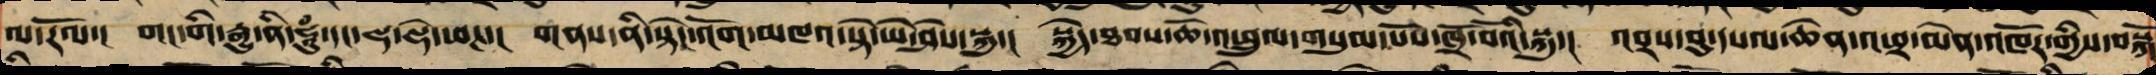ལ་རོལ་། གང་གིས་རྒྱུ་ནི་ཧཱུཾ་དང་ཧ་ཧེ་ཕཊ་། གནས་ནི་སྟེང་འོག་མཁའ་སྟེ་ཡེ་ཤེས་སྐུ་། སྐྱེད་ཐབས་ཆོ་འཕྲུལ་གསུམ་པོས་ཁྲོ་བོའི་སྐུ་། འབྲས་བུ་དཔལ་ཆེན་ཕྲ་མེན་འཁོར་གྱིས་བསྐོ
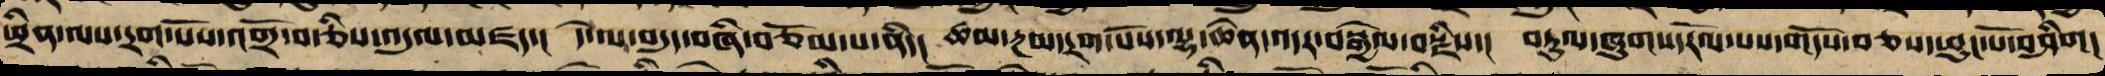ཕྲིན་ལས་དྲག་པོས་འགྲོ་བ་ཅིས་འདུལ་མཛད་། དེ་ལ་བདུད་བཞི་བཅོམ་པ་ནི་། ཚམ་རྔམ་དྲག་པོས་ལྷ་ཆེན་འདར་བསྒྱེལ་བརྫིས་། བརྟུལ་ཞུགས་རོལ་པས་གདོས་བཅས་ཕུང་པོ་བཤིག།
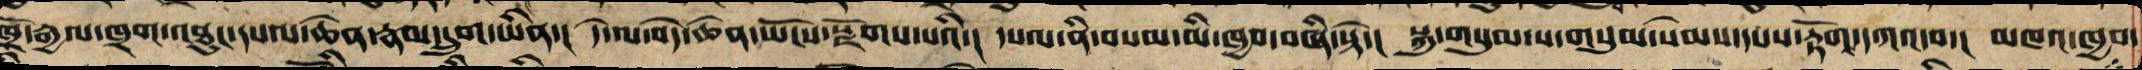ཁྲོ་རྒྱལ་ཁྲག་འཐུང་དཔལ་ཆེན་རྣམ་དྲུག་ཡིན་། དེ་ལ་བདེ་ཆེན་ཡོངས་སྫོགས་པའི་།  དཔལ་ནི་བསམ་མི་ཁྱབ་བཞི་སྟེ་།  སྐུ་གསུམ་ས་གསུམ་སེམས་དཔས་རྟོགས་དཀའ་བ་། མཁའ་ཁྱབ་
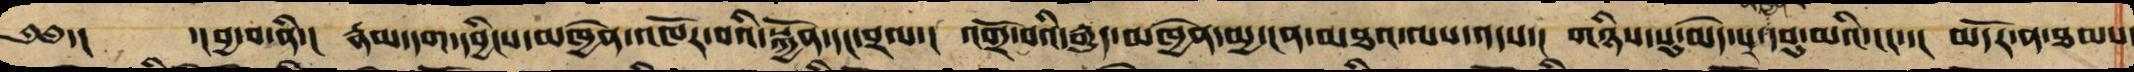༄༅་། ་།བྱ་བ་ནི་། རྣམ་དག་དབྱིངས་མཁྱེན་འཁོར་བའི་སྐྱོན་དང་བྲལ་། འགྲོ་བའི་རྒྱུད་མཁྱེན་མྱ་ངན་མཐའ་ལས་འདས་། གཉིས་སུ་མེད་པ་མཁྱེན་པ་དབུ་མའི་ངང་་། མདོར་ན་ཐམས་
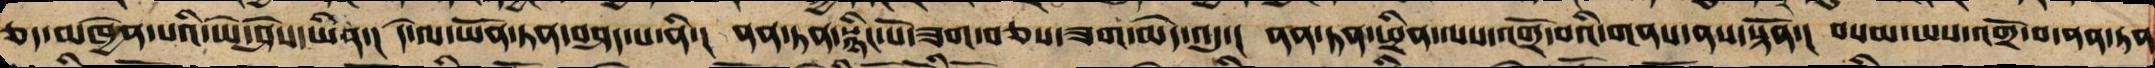ཅད་མཁྱེན་པའི་ཡེ་ཤེས་ཡིན་། དེ་ལ་ནན་ཏན་བཤད་པ་ནི་། ནན་ཏན་སྙིང་པོ་ཟག་བཅས་ཟག་མེད་འདུ་། ནན་ཏན་ཕྲིན་ལས་འགྲོ་བའི་གནས་ན་སྟོན་། བསམ་ཡས་འགྲོ་བ་ནན་ཏན
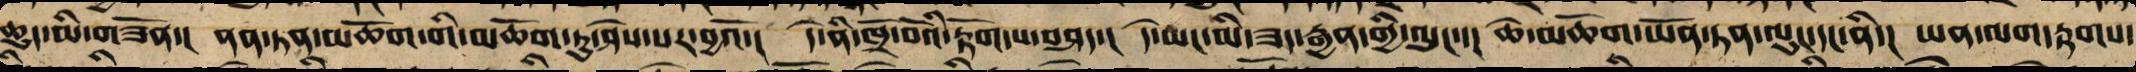ཆུད་མི་གཟོན་། ནན་ཏན་མཆོག་གི་མཆོག་ཏུ་ཤེས་པར་བྱའོ་། དེ་ནི་ཁྲོ་བོའི་རྟོག་པ་བཤད་། དེ་ཡང་མི་ཟད་རྒྱན་གྱི་ལུང་་། ཆེ་མཆོག་ཡོན་ཏན་ལུང་དང་ནི་། ཡན་ལག་རྟགས་
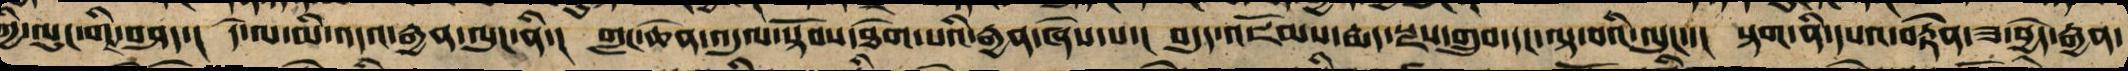ཀྱི་ལུང་གིས་བཤད་། དེ་ལ་མི་འདའ་རྒྱན་ལུང་ནི་། གླང་ཆེན་འདུལ་སྟོབས་ཐེག་པའི་རྒྱན་ཞེས་པ་། བདུད་འཇོམས་སྨན་སྫས་གྲུབ་པ་བལྟ་བའི་ལུང་་། སྟག་ནི་དཔའ་རྟུལ་ཟ་བྱེད་རྒྱན་
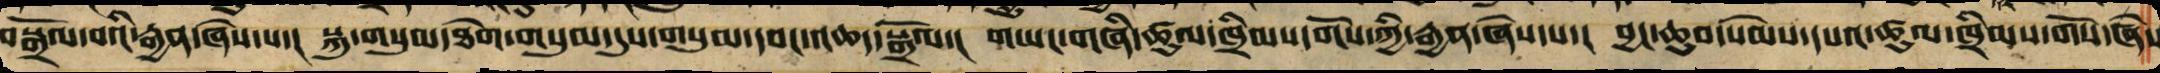བསྒྲོལ་བའི་རྒྱན་ཞེས་པ་། སྐུ་གསུམ་ཐེག་གསུམ་དུས་གསུམ་དབང་ཆས་སྒྲོལ་། གཡང་གཞི་ཚུལ་ཁྲིམས་གོས་ཀྱི་རྒྱན་ཞེས་པ་། བྱང་ཆུབ་སེམས་དཔའ་ཚུལ་དམ་ཁྲིམས་གོས་ཞེས
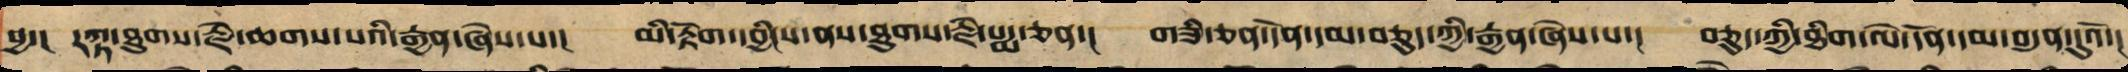བྱ་། རཀྟ་ཐུགས་རྗེ་ཆགས་པའི་རྒྱན་ཞེས་པ་། མི་རྟོག་དབྱིངས་ནས་ཐུགས་རྗེ་པདྨའི་ཅན་། གཟི་ཅན་དོན་དམ་བཅུད་ཀྱི་རྒྱན་ཞེས་པ་། བཅུད་ཀྱི་ཐིག་ལེ་དོན་དམ་ཀུན་ཏུ་འོད་།
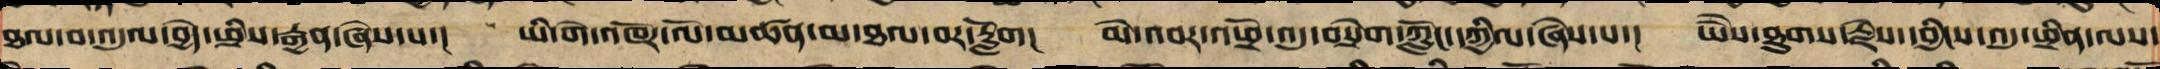ཐལ་བ་འདུལ་བྱེད་ཕྲིན་ལས་རྒྱན་ཞེས་པ་། ཡི་གེ་འཁོར་ལོ་མཚན་མ་ཐལ་བར་རློག། མེ་འབར་འཕྲོ་འདུ་བསྲེག་ཀློང་དཀྱིལ་ཞེས་པ་། ཡཻས་ཐུགས་རྗེས་དབྱིངས་འདུ་ཕྲིན་ལས་
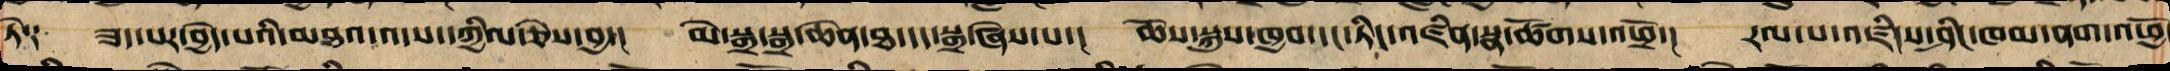ཏེ༑ ཟད་པར་བྱེད་པའི་མཐའ་འདས་དཀྱིལ་ཞེས་བྱ་། མེ་སྒྲ་སྒྲ་ཆེན་ཐ་དད་སྒྲ་ཞེས་པ་། ཆོས་སྐུས་ཁྱབ་དང་ཏིང་འཛིན་སྣ་ཚོགས་འཕྲོ་། རལ་པ་འཛིངས་ཤིང་ཁམ་ནག་འཕྱོ
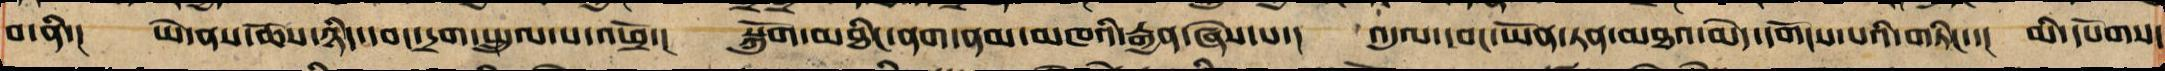བ་ནི་། ཡེ་ནས་ཆོས་ཉིད་དབང་དྲག་སྤྲུལ་པ་འཕྲོ་། སྐོུག་མཐིང་ནག་ནམ་མཁའི་རྒྱན་ཞེས་པ་། འདུལ་དབང་ཡོན་ཏན་མཐའ་མེད་དགོངས་པའི་གཏིང་་། མི་དཔོགས་
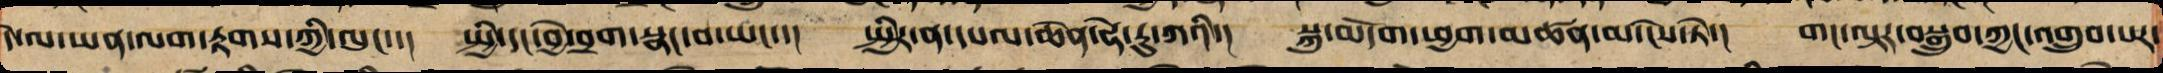དེ་ལ་ཡན་ལག་རྟགས་ཀྱི་ལུང་་། སྤྱི་དང་བྱེ་བྲག་སྣང་བ་ཡང་་། སྤྱིར་ན་དཔལ་ཆེན་ཧེ་རུ་ཀའི་། སྐུ་མདོག་ཕྱག་མཚན་མ་ངེས་ཏེ་། གང་ལྟར་བསྒྲུབས་ཀྱང་འགྲུབ་པར་
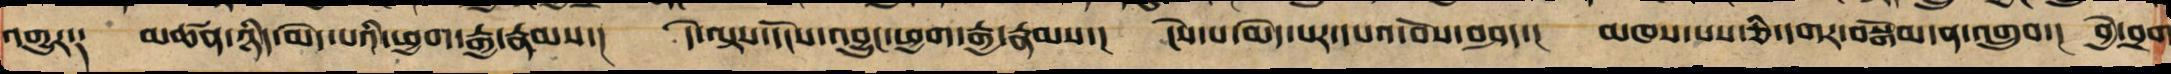འགྱུར༑ མཚན་ཉིད་མེད་པའི་ཕྱག་རྒྱ་རྣམས་། དེ་ལྟས་དངོས་འབྱུང་ཕྱག་རྒྱ་རྣམས་། ངེས་པ་མེད་པར་དཔའ་བོས་བཤད་། མཁས་པས་ཅི་དགར་བསྒོམས་ན་འགྲུབ་། བྱེ་བྲག
